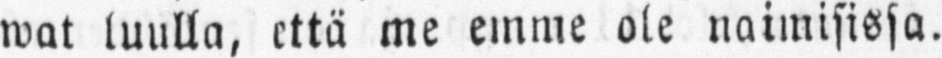wat luulla, että me emme ole naimisissa.
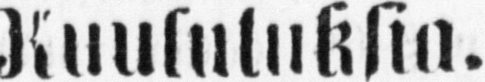Kuululuksia.
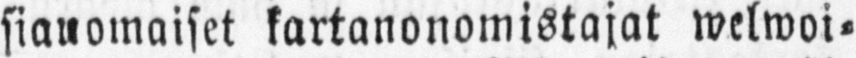Asianomaiset kartanonomistajat welwoi-
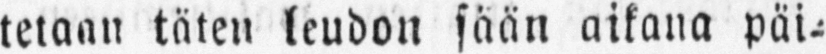tetaan täten leudon sään aikana pai-
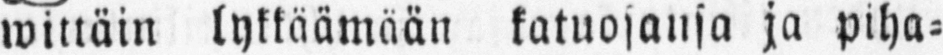wittäin lykkäämään katuosansa ja piha-
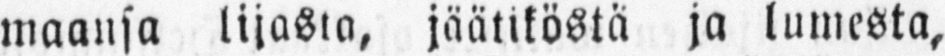maansa lijasta, jäätiköstä ja lumesta,
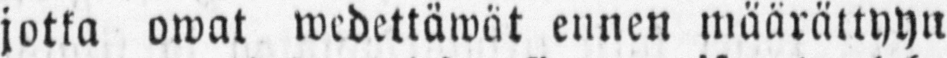jotka owat wedettawät ennen määrättyyn
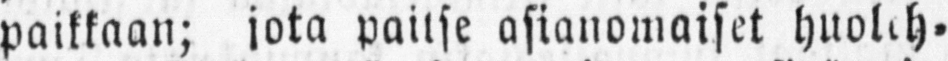paikkaan; jota paitse asianomaiset huoleh-
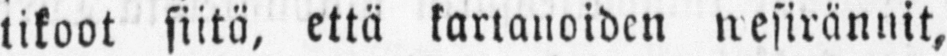tikoot siitä, että kartanoiden wesirännit,
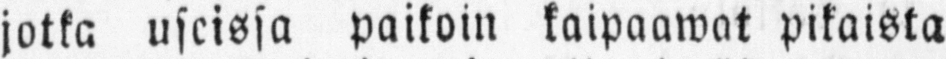jotka useissa paikoin kaipaawat pikaista
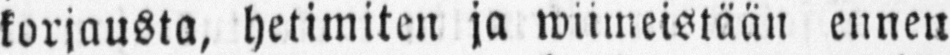korjausta, hetimiten ja wiimeistään ennen
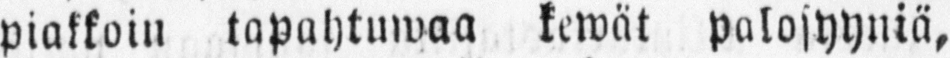piakkoin tapahtuwaa kewät palosyyniä,
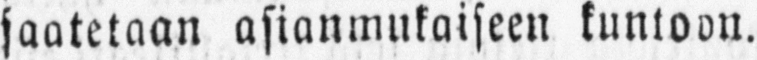saatetaan asianmukaiseen kuntoon.
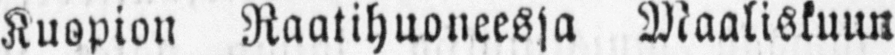Kuopion Raatihuoneessa Maaliskuun
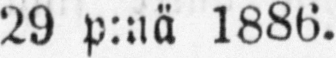29 p:nä 1886.
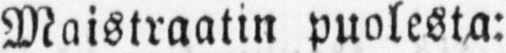Maistraatin puolesta:
